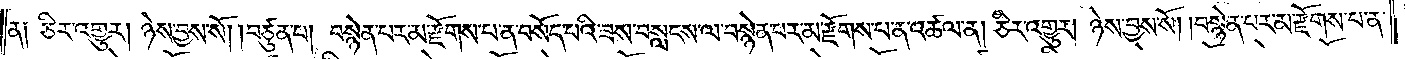ན༑ ཅིར་འགྱུར། ཉེས་བྱས་སོ། །བཙུན་པ། བསྙེན་པར་མ་རྫོགས་པ་ན་བསོད་པའི་ཟས་བསླངས་ལ་བསྙེན་པར་མ་རྫོགས་པ་ན་འཚལ་ན། ཅིར་འགྱུར། ཉེས་བྱས་སོ། །བསྙེན་པར་མ་རྫོགས་པ་ན་
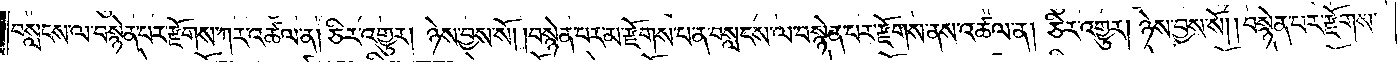བསླངས་ལ་བསྙེན་པར་རྫོགས་ཀར་འཚལ་ན། ཅིར་འགྱུར། ཉེས་བྱས་སོ། །བསྙེན་པར་མ་རྫོགས་པ་ན་བསླངས་ལ་བསྙེན་པར་རྫོགས་ནས་འཚལ་ན། ཅིར་འགྱུར། ཉེས་བྱས་སོ། །བསྙེན་པར་རྫོགས་
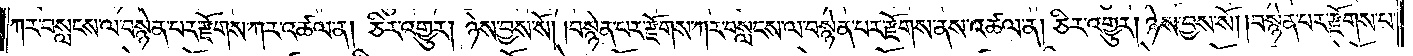ཀར་བསླངས་ལ་བསྙེན་པར་རྫོགས་ཀར་འཚལ་ན། ཅིར་འགྱུར། ཉེས་བྱས་སོ། །བསྙེན་པར་རྫོགས་ཀར་བསླངས་ལ་བསྙེན་པར་རྫོགས་ནས་འཚལ་ན། ཅིར་འགྱུར། ཉེས་བྱས་སོ། །བསྙེན་པར་རྫོགས་པ་
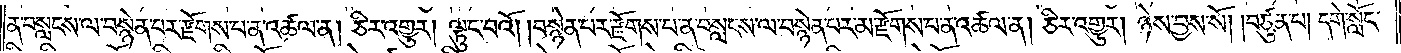ན་བསླངས་ལ་བསྙེན་པར་རྫོགས་པ་ན་འཚལ་ན། ཅིར་འགྱུར། ལྟུང་བའོ། །བསྙེན་པར་རྫོགས་པ་ན་བསླངས་ལ་བསྙེན་པར་མ་རྫོགས་པ་ན་འཚལ་ན། ཅིར་འགྱུར། ཉེས་བྱས་སོ། །བཙུན་པ། དགེ་སློང་
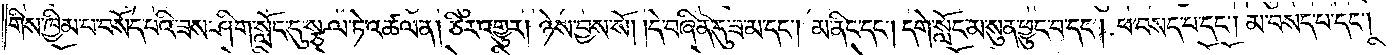གིས་ཁྱིམ་པ་བསོད་པའི་ཟས་ཤིག་སློང་དུ་སྩལ་ཏེ་འཚལ་ན། ཅིར་འགྱུར། ཉེས་བྱས་སོ། །དེ་བཞིན་དུ་ཟ་མ་དང༌། མ་ནིང་དང༌། དགེ་སློང་མ་སུན་ཕྱུང་བ་དང༌། ཕ་བསད་པ་དང༌། མ་བསད་པ་དང༌།
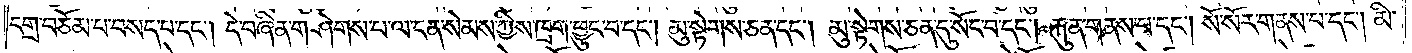དགྲ་བཅོམ་པ་བསད་པ་དང༌། དེ་བཞིན་གཤེགས་པ་ལ་ངན་སེམས་ཀྱིས་ཁྲག་ཕྱུང་བ་དང༌། མུ་སྟེགས་ཅན་དང༌། མུ་སྟེགས་ཅན་དུ་སོང་བ་དང༌། རྐུན་གནས་པ་དང༌། སོ་སོར་གནས་པ་དང༌། མི་
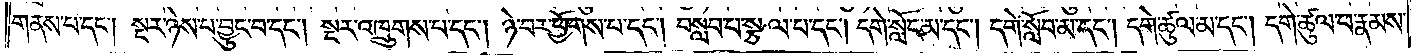གནས་པ་དང༌། སྔར་ཉེས་པ་བྱུང་བ་དང༌། སྔར་འཁྲུགས་པ་དང༌། ཉེ་བར་ཕྱོགས་པ་དང༌། བསླབ་པ་སྩལ་བ་དང༌། དགེ་སློང་མ་དང༌། དགེ་སློབ་མ་དང༌། དགེ་ཚུལ་མ་དང༌། དགེ་ཚུལ་ཕ་རྣམས་
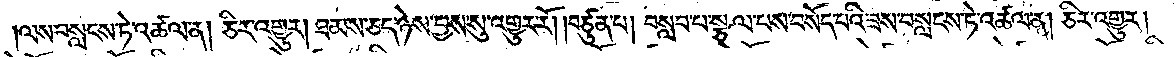ལས་བསླངས་ཏེ་འཚལ་ན། ཅིར་འགྱུར། ཐམས་ཅད་ཉེས་བྱས་སུ་འགྱུར་རོ། །བཙུན་པ། བསླབ་པ་སྩལ་པས་བསོད་པའི་ཟས་བསླངས་ཏེ་འཚལ་ན། ཅིར་འགྱུར།
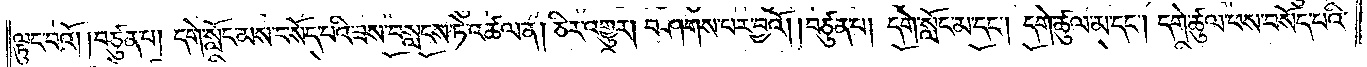ལྟུང་བའོ། །བཙུན་པ། དགེ་སློང་མས་བསོད་པའི་ཟས་བསླངས་ཏེ་འཚལ་ན། ཅིར་འགྱུར། བཤགས་པར་བྱའོ། །བཙུན་པ། དགེ་སློང་མ་དང༌། དགེ་ཚུལ་མ་དང༌། དགེ་ཚུལ་ཕས་བསོད་པའི་
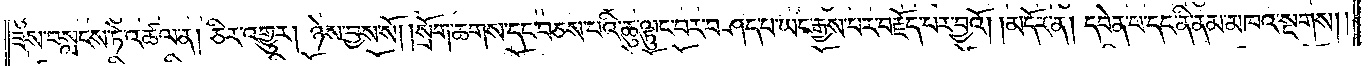ཟས་བསླངས་ཏེ་འཚལ་ན། ཅིར་འགྱུར། ཉེས་བྱས་སོ། །སྲོག་ཆགས་དང་བཅས་པའི་ཆུ་ལྟུང་བར་བཤད་པ་ཡང་རྒྱས་པར་བརྗོད་པར་བྱའོ།    །མདོར་ན། དབེན་པ་དང་ནི་ནམ་མཁའ་སྔགས༎
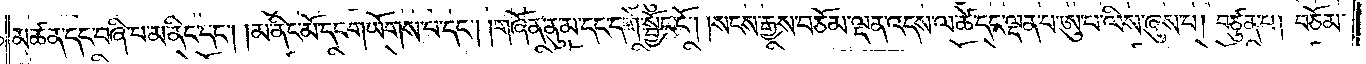མཚན་དང་བཞི་པ་མ་ནིང་དང༌། །མ་ནིང་མོ་དང་གཡོགས་པ་དང༌། །གཞོན་ནུ་མ་དང་དགེ་སྦྱོང་ངོ༌། །སངས་རྒྱས་བཅོམ་ལྡན་འདས་ལ་ཚེ་དང་ལྡན་པ་ཨུ་པ་ལིས་ཞུས་པ། བཙུན་པ། བཅོམ་
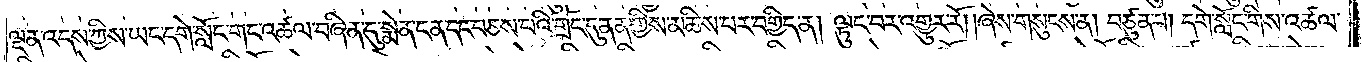ལྡན་འདས་ཀྱིས་ཡང་དགེ་སློང་གང་འཚལ་བཞིན་དུ་སྨེན་ངན་དང་བཅས་པའི་གྲོང་དུ་ནན་གྱིས་མཆིས་པར་བགྱིད་ན། ལྟུང་བར་འགྱུར་རོ། །ཞེས་གསུངས་ན། བཙུན་པ། དགེ་སློང་གིས་འཚལ་
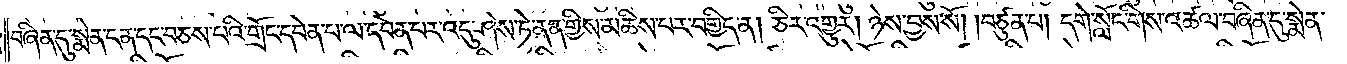བཞིན་དུ་སྨེན་ངན་དང་བཅས་པའི་གྲོང་དབེན་པ་ལ་དབེན་པར་འདུ་ཤེས་ཏེ་ནན་གྱིས་མཆིས་པར་བགྱིད་ན། ཅིར་འགྱུར། ཉེས་བྱས་སོ། །བཙུན་པ། དགེ་སློང་གིས་འཚལ་བཞིན་དུ་སྨེན་
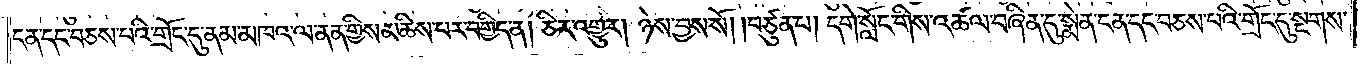ངན་དང་བཅས་པའི་གྲོང་དུ་ནམ་མཁའ་ལ་ནན་གྱིས་མཆིས་པར་བགྱིད་ན། ཅིར་འགྱུར། ཉེས་བྱས་སོ། །བཙུན་པ། དགེ་སློང་གིས་འཚལ་བཞིན་དུ་སྨེན་ངན་དང་བཅས་པའི་གྲོང་དུ་སྔགས་
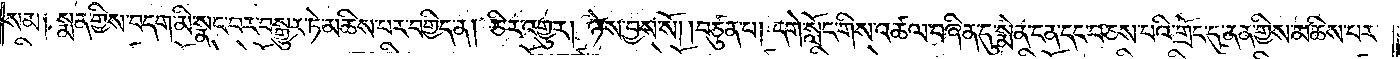སམ༑ སྨན་གྱིས་བདག་མི་སྣང་བར་བསྒྱུར་ཏེ་མཆིས་པར་བགྱིད་ན། ཅིར་འགྱུར། ཉེས་བྱས་སོ། །བཙུན་པ། དགེ་སློང་གིས་འཚལ་བཞིན་དུ་སྨེན་ངན་དང་བཅས་པའི་གྲོང་དུ་ནན་གྱིས་མཆིས་པར་
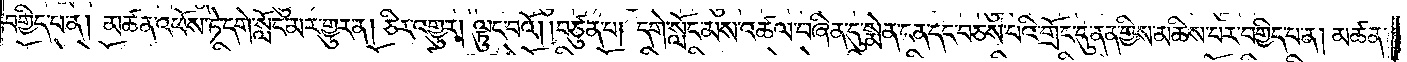བགྱིད་པ་ན། མཚན་འཕོས་ཏེ་དགེ་སློང་མར་གྱུར་ན། ཅིར་འགྱུར། ལྟུང་བའོ། །བཙུན་པ། དགེ་སློང་མས་འཚལ་བཞིན་དུ་སྨེན་ངན་དང་བཅས་པའི་གྲོང་དུ་ནན་གྱིས་མཆིས་པར་བགྱིད་པ་ན། མཚན་
